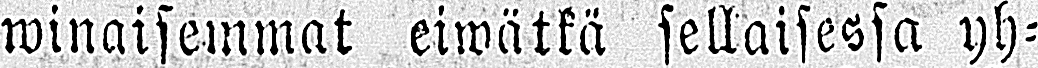winaisemmat eiwätkä sellaisessa yh-
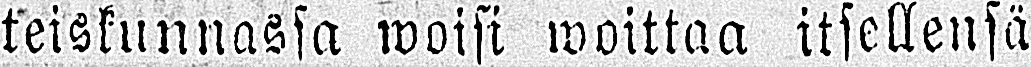teiskunnassa woisi woittaa itsellensä
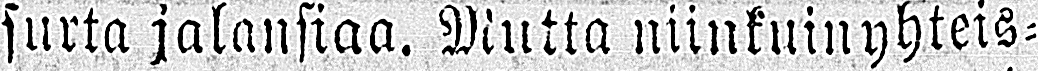surta jalansiaa. Mutta niinkuin yhteis-
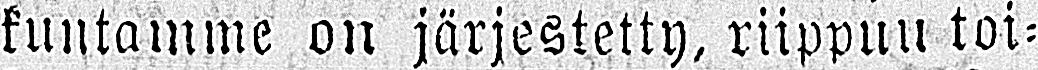kuntamme on järjestetty, riippuu toi-
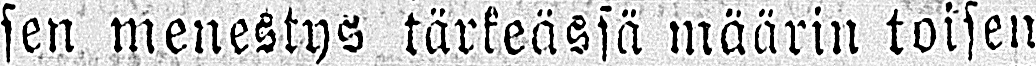sen menestys tärkeässä määrin toisen
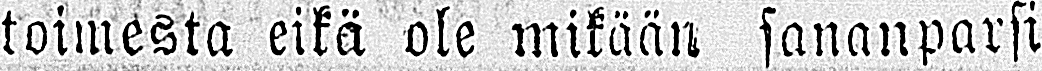toimesta eikä ole mikään sananparsi
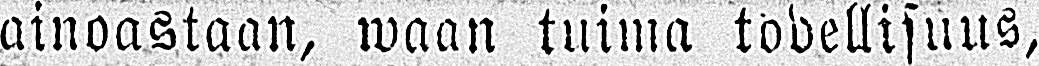ainoastaan, waan tuima todellisuus,
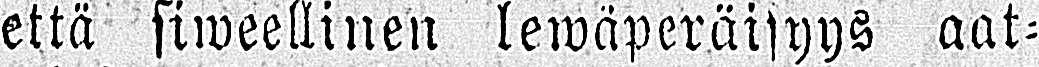että siweellinen lewäperäisyys aat-
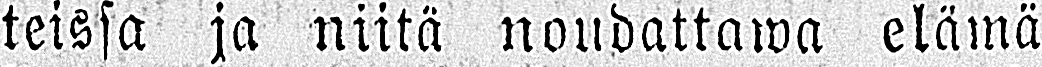teissa ja niitä noudattawa elämä
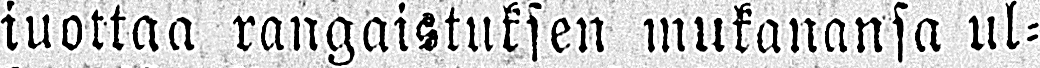iuottaa rangaistuksen mukanansa ul-
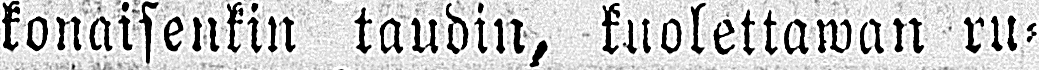konaisenkin taudin, kuolettawan ru-
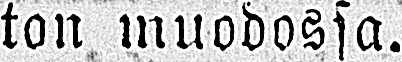ton muodossa.
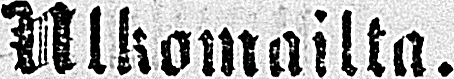Ulkomailta.
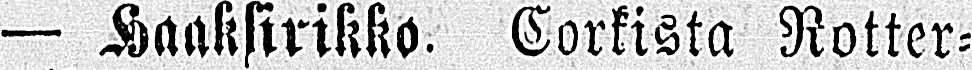— Haaksirikko. Corkista Rotter-
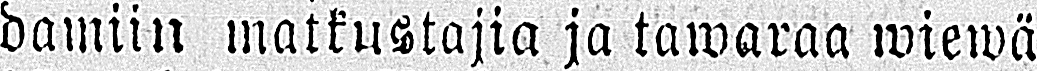damiin matkustajia ja tawaraa wiewä
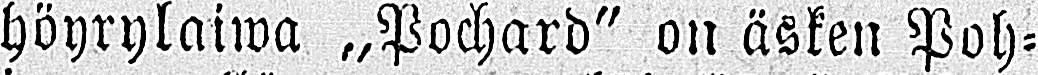höyrylaiwa „Pochard" on äsken Poh-
